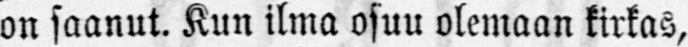on saanut. Kun ilma osuu olemaan kirkas,
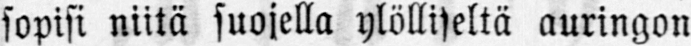sopisi niitä suojella ylölliseltä auringon
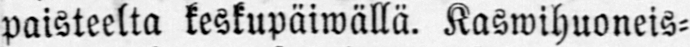paisteelta keskupäiwällä. Kaswihuoneis-
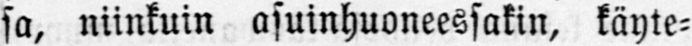sa, niinkuin asuinhuoneessakin, käyte-
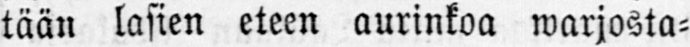tään lasien eteen aurinkoa warjosta-
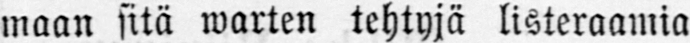maan sitä warten tehtyjä listeraamia
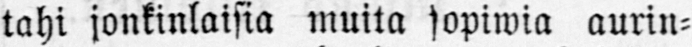tahi jonkinlaisia muita sopiwia aurin-
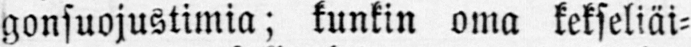gonsuojustimia; kunkin oma kekseliäi-
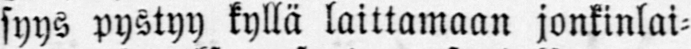syys pystyy kyllä laittamaan jonkinlai-
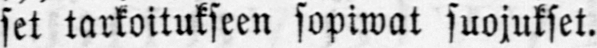set tarkoitukseen sopiwat suojukset.
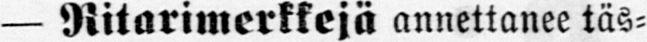— Ritarimerkkejä annettanee täs-
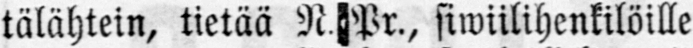tälähtein, tietää N. Vr., siwiilihenkilöille
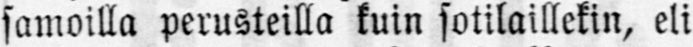samoilla perusteilla kuin sotilaillekin, eli
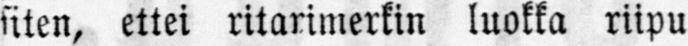siten, ettei ritarimerkin luokka riipu
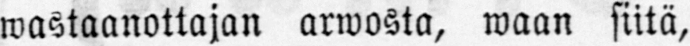wastaanottajan arwosta, waan siitä,
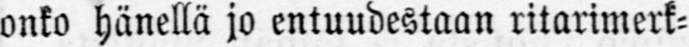onko hänellä jo entuudestaan ritarimerk-
